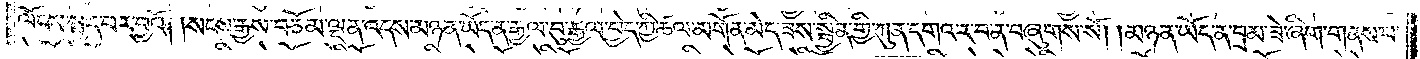ལོངས་སྤྱད་པར་བྱའོ། །སངས་རྒྱས་བཅོམ་ལྡན་འདས་མཉན་ཡོད་ན་རྒྱལ་བུ་རྒྱལ་བྱེད་ཀྱི་ཚལ་མགོན་མེད་ཟས་སྦྱིན་གྱི་ཀུན་དགའ་ར་བ་ན་བཞུགས་སོ། །མཉན་ཡོད་ན་བྲམ་ཟེ་ཞིག་གནས་པ་
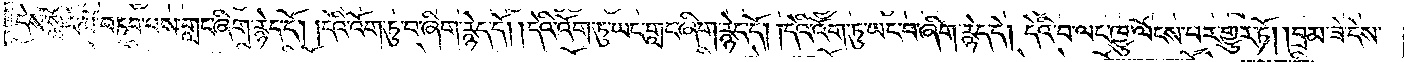དེས་སློང་མོ་བཏབ་པས་གླང་ཞིག་རྙེད་དོ། །དེའི་འོག་ཏུ་བ་ཞིག་རྙེད་དོ། །དེའི་འོག་ཏུ་ཡང་གླང་ཞིག་རྙེད་དོ། །དེའི་འོག་ཏུ་ཡང་བ་ཞིག་རྙེད་དེ། དེའི་བ་ལང་ཁྱུ་ལོངས་པར་གྱུར་ཏོ། །བྲམ་ཟེ་དེས་
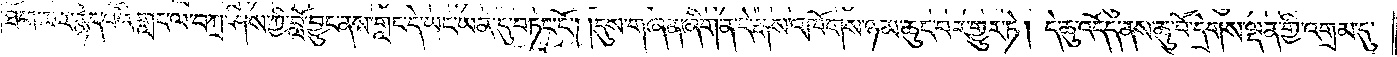ཐོག་མར་རྙེད་པའི་གླང་ལ་བཀྲ་ཤིས་ཀྱི་བློ་བྱུང་ནས་གླང་དེ་ཡང་ཡན་དུ་བཏང་ངོ༌། །དུས་གཞན་ཞིག་ན་དེ་རྒས་འཁོགས་ཉམ་ཆུང་བར་གྱུར་ཏེ། དེ་ཆུ་འདོད་ནས་ཆུ་བོ་དྲེགས་ལྡན་གྱི་འགྲམ་དུ་
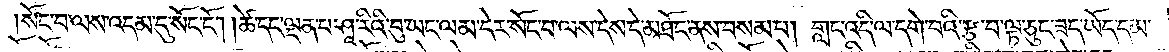སོང་བ་ལས་འདམ་དུ་སོང་ངོ༌། །ཚེ་དང་ལྡན་པ་ཤཱ་རིའི་བུ་ཡང་ལམ་དེར་སོང་བ་ལས་དེས་དེ་མཐོང་ནས་བསམ་པ། གླང་འདི་ལ་དགེ་བའི་རྩ་བ་ལྟ་ཅུང་ཟད་ཡོད་དམ་
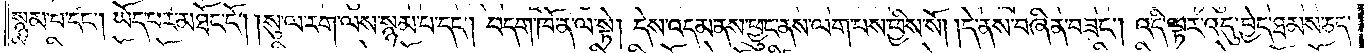སྙམ་པ་དང༌། ཡོད་པར་མཐོང་ངོ༌། །སུ་ལ་རག་ལས་སྙམ་པ་དང༌། བདག་ཁོ་ན་ལ་སྟེ། དེས་འདམ་ནས་ཕྱུང་ནས་ལག་པས་ཕྱིས་སོ། །དེ་ནས་བཞིན་བཟང༌། འདི་ལྟར་འདུ་བྱེད་ཐམས་ཅད་
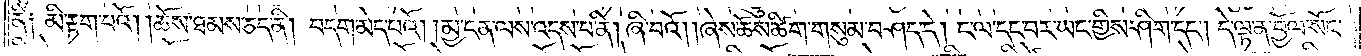ནི༑ མི་རྟག་པའོ། །ཆོས་ཐམས་ཅད་ནི། བདག་མེད་པའོ། །མྱ་ངན་ལས་འདས་པ་ནི། ཞི་བའོ། །ཞེས་ཆོས་ཚིག་གསུམ་བཤད་དེ། ང་ལ་དང་བར་ཡང་གྱིས་ཤིག་དང༌། དེ་ལྟ་ན་བྱོལ་སོང་
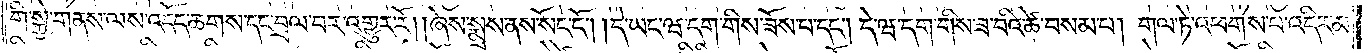གི་སྐྱེ་གནས་ལས་འདོད་ཆགས་དང་བྲལ་བར་འགྱུར་རོ། །ཞེས་སྨྲས་ནས་སོང་ངོ༌། །དེ་ཡང་ཝ་དག་གིས་ཟོས་པ་དང༌། དེ་ཝ་དག་གིས་ཟ་བའི་ཚེ་བསམ་པ། གལ་ཏེ་འཕགས་པ་འདིར་མ་
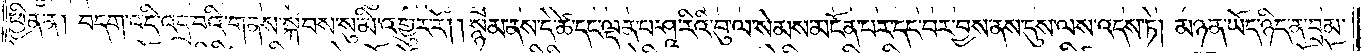ཕྱིན་ན། བདག་འདི་འདྲ་བའི་གནས་སྐབས་སུ་མི་འགྱུར་རོ། །སྙམ་ནས་དེ་ཚེ་དང་ལྡན་པ་ཤཱ་རིའི་བུ་ལ་སེམས་མངོན་པར་དང་བར་བྱས་ནས་དུས་ལས་འདས་ཏེ། མཉན་ཡོད་ཉིད་ན་བྲམ་
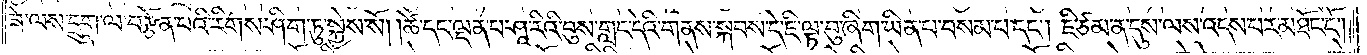ཟེ་ལས་དྲུག་ལ་བརྩོན་པའི་རིགས་ཤིག་ཏུ་སྐྱེས་སོ། །ཚེ་དང་ལྡན་པ་ཤཱ་རིའི་བུས་གླང་དེའི་གནས་སྐབས་དེ་ཇི་ལྟ་བུ་ཞིག་ཡིན་པ་བསམ་པ་དང༌། ཇི་ཙམ་ན་དུས་ལས་འདས་པར་མཐོང་ངོ༌། །
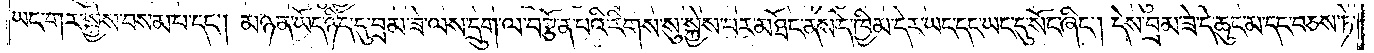ཡང་གར་སྐྱེས་བསམ་པ་དང༌། མཉན་ཡོད་ཉིད་དུ་བྲམ་ཟེ་ལས་དྲུག་ལ་བརྩོན་པའི་རིགས་སུ་སྐྱེས་པར་མཐོང་ནས་དེ་ཁྱིམ་དེར་ཡང་དང་ཡང་དུ་སོང་ཞིང༌། དེས་བྲམ་ཟེ་དེ་ཆུང་མ་དང་བཅས་ཏེ་
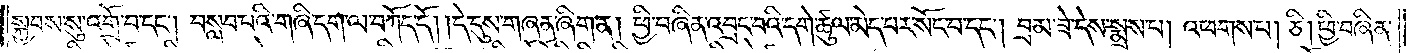སྐྱབས་སུ་འགྲོ་བ་དང༌། བསླབ་པའི་གཞི་དག་ལ་བཀོད་དོ། །དེ་དུས་གཞན་ཞིག་ན། ཕྱི་བཞིན་འབྲང་བའི་དགེ་ཚུལ་མེད་པར་སོང་བ་དང༌། བྲམ་ཟེ་དེས་སྨྲས་པ། འཕགས་པ། ཅི། ཕྱི་བཞིན་
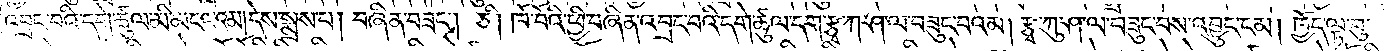འབྲང་བའི་དགེ་ཚུལ་མི་མངའ་འམ། དེས་སྨྲས་པ། བཞིན་བཟང༌། ཅི། ཁོ་བོའི་ཕྱི་བཞིན་འབྲང་བའི་དགེ་ཚུལ་དག་རྩྭ་ཀ་ཤ་ལ་བཟུང་བའམ། རྩྭ་ཀུ་ཤ་ལ་བཟུང་བས་འབྱུང་ངམ། ཁྱོད་ལྟ་བུ་
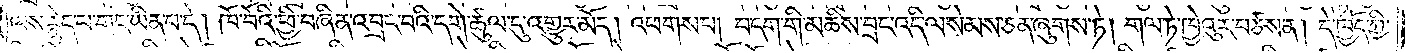ལས་རྙེད་པ་གང་ཡིན་པ་དེ། ཁོ་བོའི་ཕྱི་བཞིན་འབྲང་བའི་དགེ་ཚུལ་དུ་འགྱུར་མོད། འཕགས་པ། བདག་གི་མཆིས་བྲང་འདི་ལ་སེམས་ཅན་ཞུགས་ཏེ། གལ་ཏེ་ཁྱེའུར་བཙས་ན། དེ་ཁྱོད་ཀྱི་
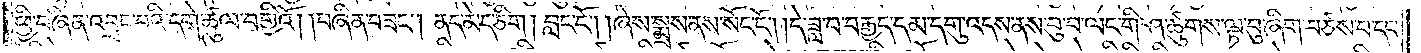ཕྱི་བཞིན་འབྲང་བའི་དགེ་ཚུལ་བགྱིའོ། །བཞིན་བཟང༌། ནད་མེད་ཅིག །བླང་ངོ༌། །ཞེས་སྨྲས་ནས་སོང་ངོ༌། །དེ་ཟླ་བ་བརྒྱད་དམ་དགུ་འདས་ནས་བུ་བ་ལང་གི་ཤ་ཚུགས་ལྟ་བུ་ཞིག་བཙས་པ་དང་
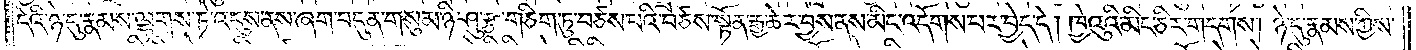དེའི་ཉེ་དུ་རྣམས་ལྷགས་ཏེ་འདུས་ནས་ཞག་བདུན་གསུམ་ཉི་ཤུ་རྩ་གཅིག་ཏུ་བཙས་པའི་བཙས་སྟོན་རྒྱ་ཆེར་བྱས་ནས་མིང་འདོགས་པར་བྱེད་དེ། ཁྱེའུའི་མིང་ཅིར་གདགས། ཉེ་དུ་རྣམས་ཀྱིས་
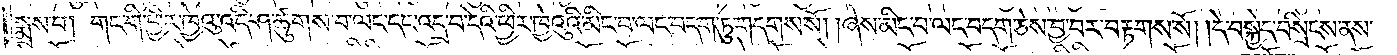སྨྲས་པ། གང་གི་ཕྱིར་ཁྱེའུ་འདི་ཤ་ཚུགས་བ་ལང་དང་འདྲ་བ་དེའི་ཕྱིར་ཁྱེའུའི་མིང་བ་ལང་བདག་ཏུ་གདགས་སོ། །ཞེས་མིང་བ་ལང་བདག་ཅེས་བྱ་བར་བརྟགས་སོ། །དེ་བསྐྱེད་བསྲིངས་ནས་
